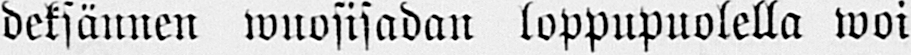deksännen wuosisadan loppupuolella woi
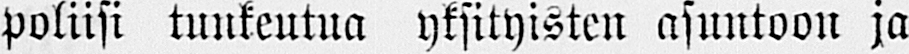poliisi tunkeutua yksityisten asuntoon ja
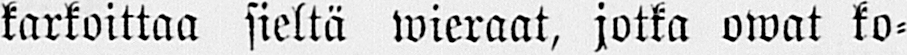kartoittaa sieltä wieraat, jotka owat ko-
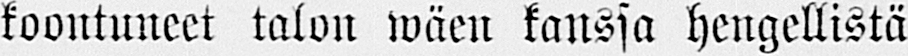koontuneet talon wäen kanssa hengellistä
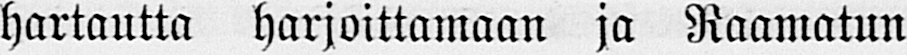hartautta harjoittamaan ja Raamatun
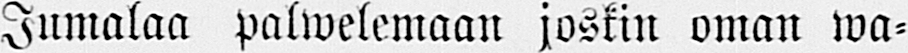Jumalaa palwelemaan joskin oman wa-
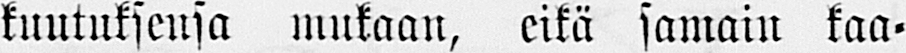kuutuksensa mukaan, eikä samain kaa-
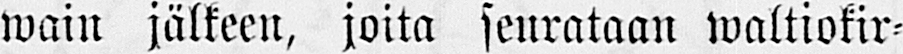wain jälkeen, joita seurataan waltiokir-
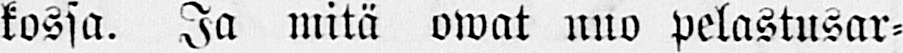kossa. Ja mitä owat nuo pelastusar-
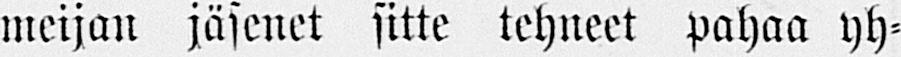meijan jäsenet sitte tehneet pahaa yh-
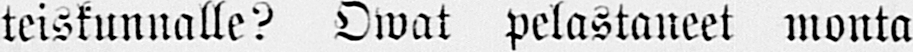teiskunnalle? Owat pelastaneet monta
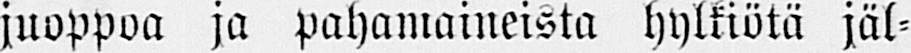juoppoa ja pahamaineista hylkiötä jäl-
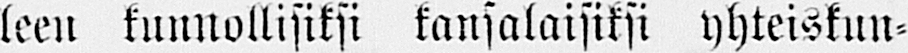leen kunnollisiksi kansalaisiksi yhteiskun-
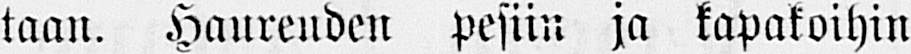taan. Haureuden pesiin ja kapakoihin
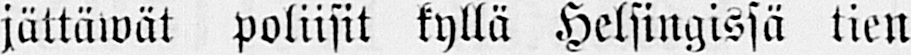jättäwät poliisit kyllä Helsingissä tien
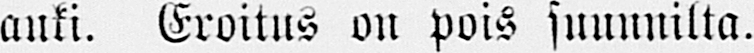auki. Eroitus on pois suunnilta.
